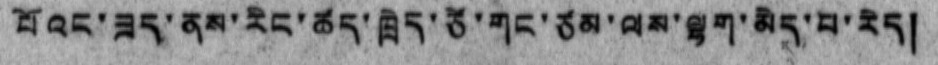པོའང་ཟད་ནས་རིང་ཚད་ཁྲེད་ཙེ་གང་ཙམ་ལས་ལྷག་མེད་པ་རེད།
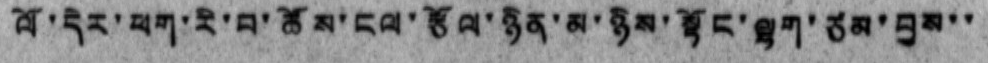ལོ་དེར་ཕག་རི་བ་ཚོས་ངལ་རྩོལ་ཉིན་མ་ཉིས་སྟོང་ལྷག་ཙམ་བྱས་་
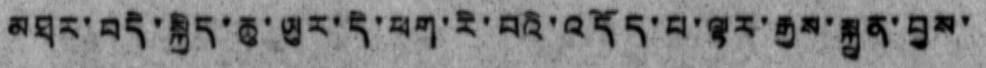མཐར་བདེ་སྐྱིད་ཆུ་ཡུར་དེ་ཕག་རི་བའི་འདོད་པ་ལྟར་རྒྱས་སྐྲུན་བྱས་
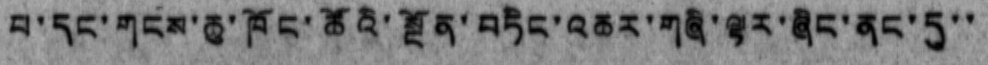པ་དང་གངས་ཆུ་ཁོང་ཚོའི་སྔོན་བཏིང་འཆར་གཞི་ལྟར་ཞིང་ནང་དུ་་
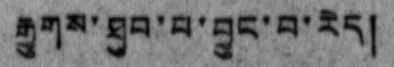རྒྱུགས་ཐུབ་པ་བྱུང་བ་རེད།
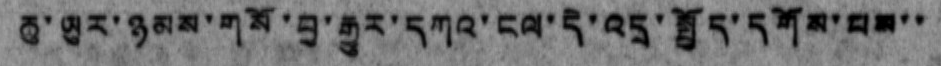ཆུ་ཡུར་ཉམས་གསོ་བྱ་རྒྱུར་དཀའ་ངལ་དེ་འདྲ་སྤྱོད་དགོས་པས་་
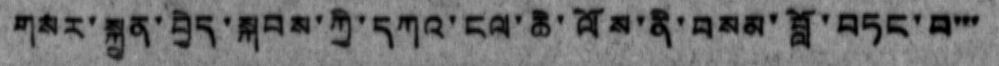གསར་སྐྲུན་བྱེད་སྐབས་ཀྱི་དཀའ་ངལ་ཆེ་ལོས་ནི་བམས་བློ་བཏང་བ་་་
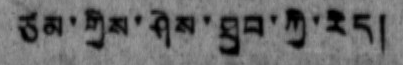ཙམ་གྱིས་ཤེས་ཐུབ་ཀྱི་རེད།
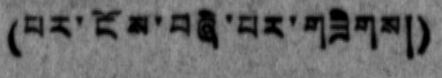(པར་ངོས་བཞི་པར་གཟིགས།)
